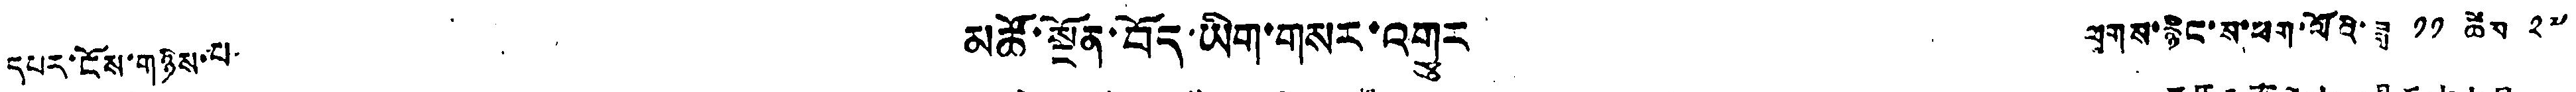དཔར་ངོས་གཉིས་པ། མཚོ་སྔོན་བོད་ཡིག་གསར་འགྱུར ལུགས་རྙིང་ས་ཕག་ལོའི་ཟླ ༡༡ ཚེས ༢༧
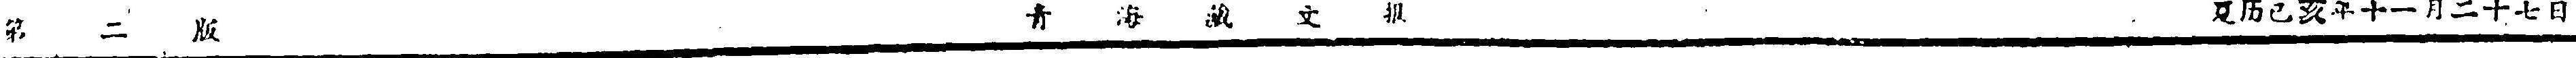第 二 版 青 海 藏 文 报 夏历己亥年十一月二十七日
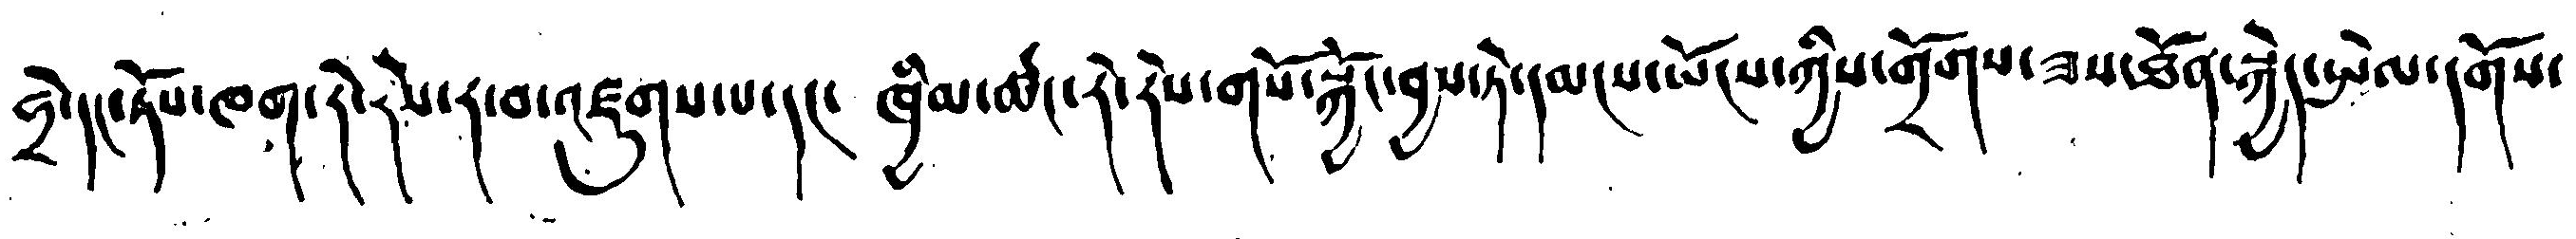ཧྲེ་དང་ཏོས་ཁག་རེ་རེས་ར་བ་འཛུགས་པ་དང་ ཁྲིམ་ཚང་རེ་རེས་གསོ་སྐྱོ་བྱས་ཏེ་དམངས་ཡོངས་ཀྱིས་གྲོགས་ཟས་ཐོན་སྐྱེད་སྤེལ་དགོས་
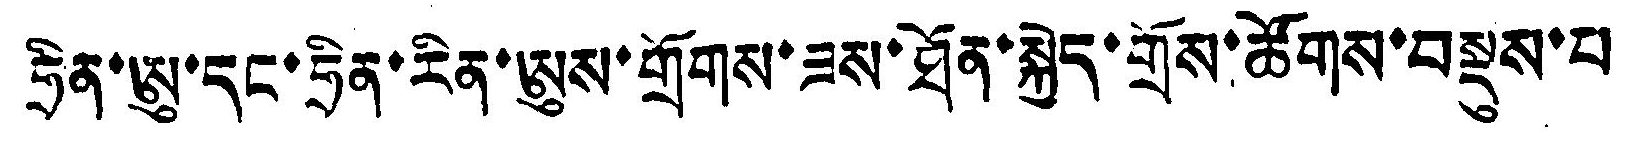ཧྲིན་ཨུ་དང་ཧྲིན་རིན་ཨུས་གྲོགས་ཟས་ཐོན་སྐྱེད་གྲོས་ཚོགས་བསྡུས་པ
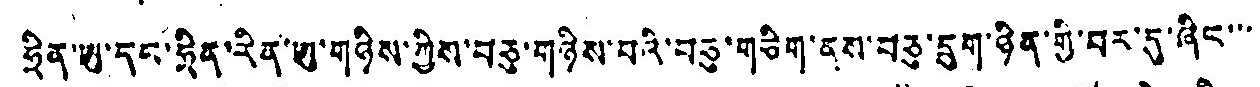ཧྲིན་ཨུ་དང་ཧྲིན་རིན་ཨུ་གཉིས་ཀྱིས་བཅུ་གཉིས་པའི་བཅུ་གཅིག་ནས་བཅུ་དྲུག་ཉིན་གྱི་བར་དུ་ཞིང་་་་
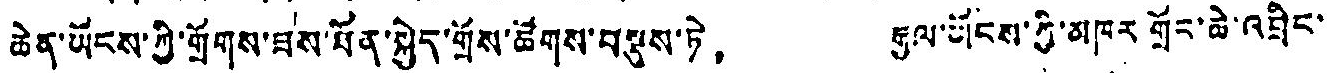ཆེན་ཡོངས་ཀྱི་གྲོགས་ཟས་ཐོན་སྐྱེད་གྲོས་ཚོགས་བསྡུས་ཏེ， རྒྱལ་ཡོངས་ཀྱི་མཁར གྲོང་ཆེ་འབྲིང་
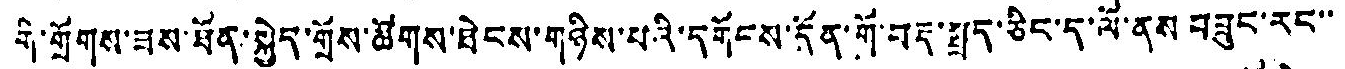གི་གྲོགས་ཟས་ཐོན་སྐྱེད་གྲོས་ཚོགས་ཐེངས་གཉིས་པའི་དགོངས་དོན་གོ་བརྡ་སྤྲད་ཅིང་ད་ལོ་ནས བཟུང་རང་་
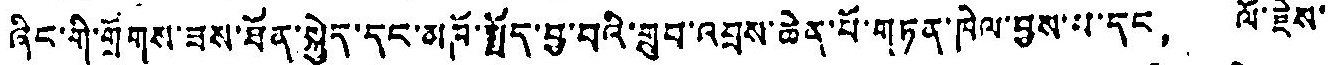ཞིང་གི་གྲོགས་ཟས་ཐོན་སྐྱེད་དང་མཁོ་སྤྲོད་བྱ་བའི་གྲུབ་འབྲས་ཆེན་པོ་གཏན་ཁེལ་བྱས་པ་དང， ལོ་རྗེས་
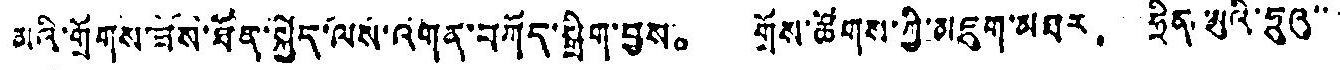མའི་གྲོགས་ཟོས་ཐོན་སྐྱེད་ལས་འགན་བཀོད་སྒྲིག་བྱས。 གྲོས་ཚོགས་ཀྱི་མཇུག་མཐར， ཧྲིན་ཨུའི་ཧུའུ་་་་
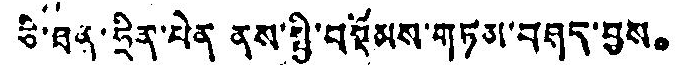ཅི་ཐན་ཧྲིན་པེན ནས་སྤྱི་བསྡོམས་གཏམ་བཤད་བྱས。
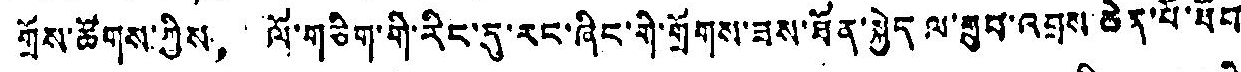གྲོས་ཚོགས་ཀྱིས， ལོ་གཅིག་གི་རིང་དུ་རང་ཞིང་གི་གྲོགས་ཟས་ཐོན་སྐྱེད ལ་གྲུབ་འབྲས་ཆེན་པོ་ཐོབ་
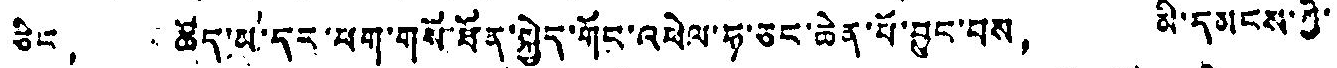ཅིང， ཚོད་མ་དང་ཕག་གསོ་ཐོན་སྐྱེད་གོང་འཕེལ་ཧ་ཅང་ཆེན་པོ་བྱུང་བས， མི་དམངས་ཀྱི་
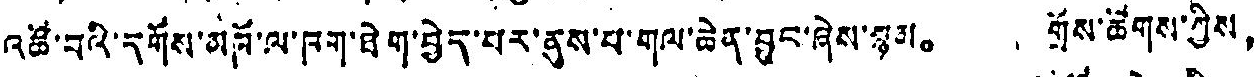འཚོ་བའི་དགོས་མཁོ་ལ་ཁག་ཐེག་བྱེད་པར་ནུས་པ་གལ་ཆེན་བྱུང་ཞེས་སྙམ。 གྲོས་ཆིགས་ཀྱིས，
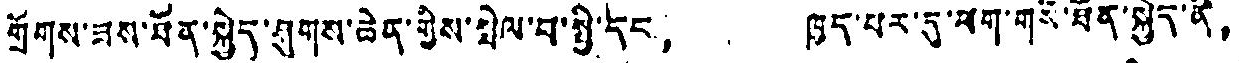གྲོགས་ཟས་ཐོན་སྐྱེད་ཤུགས་ཆེན་གྱིས་སྤེལ་བ་སྤྱི་དང， ཁྱད་པར་དུ་ཕག་གསི་ཐོན་སྐྱེད་ནི，
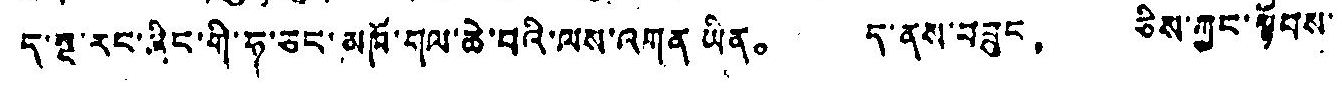ད་སྔ་རང་ཞིང་གི་ཧ་ཅང་མཁོ་གལ་ཆེ་བའི་ལས་འགན ཡིན。 ད་ནས་བཟུང， ཅིས་ཀྱང་སྟོབས་
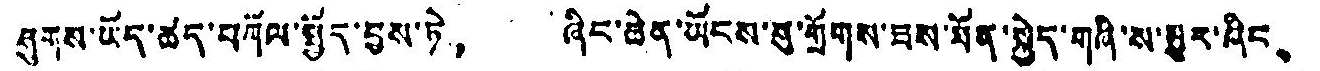ཤུགས་ཡོད་ཚད་བཀོལ་སྤྱོད་བྱས་ཏེ， ཞིང་ཆེན་ཡོངས་སུ་གྲོགས་ཟས་ཐོན་སྐྱེད་གཞི་ས་མྱུར་ཞིང、
